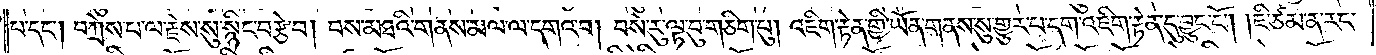པ་དང༌། བཀྲེས་པ་ལ་རྗེས་སུ་སྙིང་བརྩེ་བ། བས་མཐའི་གནས་མལ་ལ་དགའ་བ། བསེ་རུ་ལྟ་བུ་གཅིག་པུ། འཇིག་རྟེན་གྱི་ཡོན་གནས་སུ་གྱུར་པ་དག་འཇིག་རྟེན་དུ་བྱུང་ངོ༌། །ཇི་ཙམ་ན་རང་
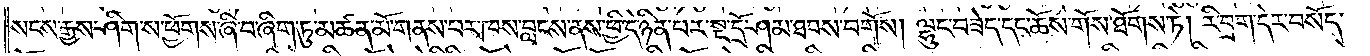སངས་རྒྱས་ཤིག་ས་ཕྱོགས་ཞི་བ་ཞིག་ཏུ་མཚན་མོ་གནས་པར་ཁས་བླངས་ནས་ཕྱི་དེ་ཉིན་པར་སྔ་དྲོ་ཤམ་ཐབས་བགོས། ལྷུང་བཟེད་དང་ཆོས་གོས་ཐོགས་ཏེ། རི་བྲག་དེར་བསོད་
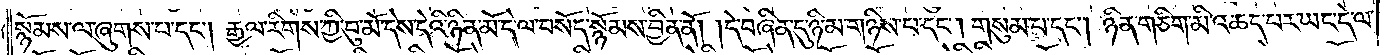སྙོམས་ལ་ཞུགས་པ་དང༌། རྒྱལ་རིགས་ཀྱི་བུ་མོ་དེས་དེའི་ཉིན་མོ་དེ་ལ་བསོད་སྙོམས་བྱིན་ནོ། །དེ་བཞིན་དུ་ཉི་མ་གཉིས་པ་དང༌། གསུམ་པ་དང༌། ཉིན་གཅིག་མི་འཆད་པར་ཡང་དེ་ལ་
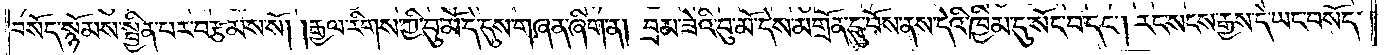བསོད་སྙོམས་སྦྱིན་པར་བརྩམས་སོ། །རྒྱལ་རིགས་ཀྱི་བུ་མོ་དེ་དུས་གཞན་ཞིག་ན། བྲམ་ཟེའི་བུ་མོ་དེས་མགྲོན་དུ་བོས་ནས་དེའི་ཁྱིམ་དུ་སོང་བ་དང༌། རང་སངས་རྒྱས་དེ་ཡང་བསོད་
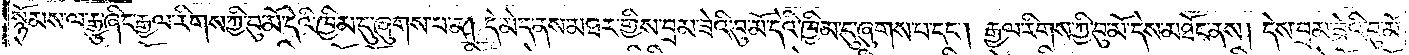སྙོམས་ལ་རྒྱུ་ཞིང་རྒྱལ་རིགས་ཀྱི་བུ་མོ་དེའི་ཁྱིམ་དུ་ཞུགས་པ་ན། དེ་མེད་ནས་མཐར་གྱིས་བྲམ་ཟེའི་བུ་མོ་དེའི་ཁྱིམ་དུ་ཞུགས་པ་དང༌། རྒྱལ་རིགས་ཀྱི་བུ་མོ་དེས་མཐོང་ནས། དེས་བྲམ་ཟེའི་བུ་མོ་
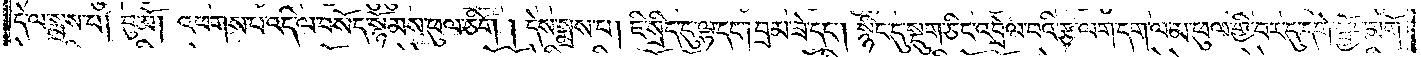དེ་ལ་སྨྲས་པ། བུ་མོ། འཕགས་པ་འདི་ལ་བསོད་སྙོམས་ཕུལ་ཅིག །དེས་སྨྲས་པ། ཇི་སྲིད་དུ་ལྷ་དང༌།བྲམ་ཟེ་དང༌། སྙིང་དུ་སྡུག་ཅིང་འབྲེལ་བའི་རྩ་ལག་དག་ལ་མ་ཕུལ་གྱི་བར་དུ་དགེ་སྦྱོང་མགོ་
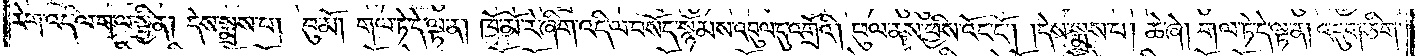རེག་འདི་ལ་ག་ལ་སྦྱིན། དེས་སྨྲས་པ། བུ་མོ། གལ་ཏེ་དེ་ལྟ་ན། ཁོ་མོ་རེ་ཞིག་འདི་ལ་བསོད་སྙོམས་འབུལ་དུ་འགྲོའི། །ཕུལ་ནས་ཕྱིས་འོང་ངོ༌། །དེས་སྨྲས་པ། ཆེ་ཞེ། གལ་ཏེ་དེ་ལྟ་ན། འདུག་ཅིག་
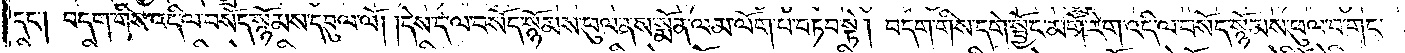དང༌། བདག་གིས་འདི་ལ་བསོད་སྙོམས་དབུལ་ལོ། །དེས་དེ་ལ་བསོད་སྙོམས་ཕུལ་ནས་སྨོན་ལམ་ལོག་པ་བཏབ་སྟེ། བདག་གིས་དགེ་སྦྱོང་མགོ་རེག་འདི་ལ་བསོད་སྙོམས་ཕུལ་བ་གང་
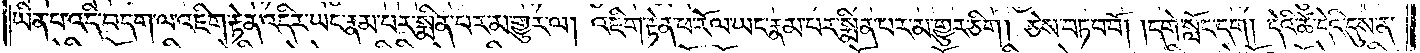ཡིན་པ་འདི་བདག་ལ་འཇིག་རྟེན་འདིར་ཡང་རྣམ་པར་སྨིན་པར་མ་གྱུར་ལ། འཇིག་རྟེན་ཕ་རོལ་ཡང་རྣམ་པར་སྨིན་པར་མ་གྱུར་ཅིག། ཅེས་བཏབ་བོ། །དགེ་སློང་དག། དེའི་ཚེ་དེའི་དུས་ན་
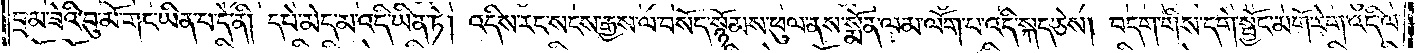བྲམ་ཟེའི་བུ་མོ་གང་ཡིན་པ་དེ་ནི། དཔེ་མེད་མ་འདི་ཡིན་ཏེ། འདིས་རང་སངས་རྒྱས་ལ་བསོད་སྙོམས་ཕུལ་ནས་སྨོན་ལམ་ལོག་པ་འདི་སྐད་ཅེས། བདག་གིས་དགེ་སྦྱོང་མགོ་རེག་འདི་ལ་
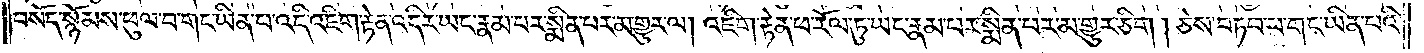བསོད་སྙོམས་ཕུལ་བ་གང་ཡིན་པ་འདི་འཇིག་རྟེན་འདིར་ཡང་རྣམ་པར་སྨིན་པར་མ་གྱུར་ལ། འཇིག་རྟེན་ཕ་རོལ་ཏུ་ཡང་རྣམ་པར་སྨིན་པར་མ་གྱུར་ཅིག །ཅེས་བཏབ་པ་གང་ཡིན་པའི་
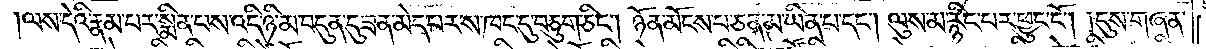ལས་དེའི་རྣམ་པར་སྨིན་པས་འདི་ཉི་མ་བདུན་དུ་ཟན་མེད་པར་ས་ཁང་དུ་བཅུག་ཅིང༌། ཉོན་མོངས་པ་ཅན་མ་ཡིན་པ་དང༌། ལུས་མ་རྙིང་པར་ཕྱུང་ངོ༌། །དུས་གཞན་
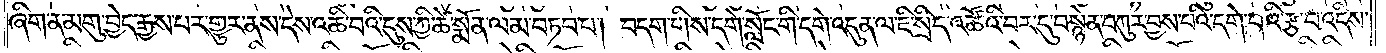ཞིག་ན་མགུ་བྱེད་རྒྱས་པར་གྱུར་ནས་དེས་འཆི་བའི་དུས་ཀྱི་ཚེ་སྨོན་ལམ་བཏབ་པ། བདག་གིས་དགེ་སློང་གི་དགེ་འདུན་ལ་ཇི་སྲིད་འཚོའི་བར་དུ་བསྙེན་བཀུར་བྱས་པའི་དགེ་བའི་རྩ་བ་འདིས་
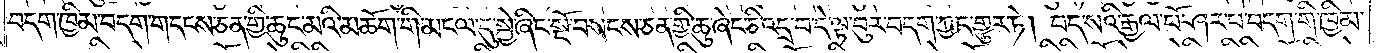བདག་ཁྱིམ་བདག་གདངས་ཅན་གྱི་ཆུང་མའི་མཆོག་གི་མངལ་དུ་སྐྱེ་ཞིང་སྔོ་བསངས་ཅན་གྱི་ཆུ་ཞེང་ཅི་འདྲ་བ་དེ་ལྟ་བུར་བདག་ཀྱང་གྱུར་ཏེ། བད་སའི་རྒྱལ་པོ་ཤར་པ་བདག་གི་ཁྱིམ་
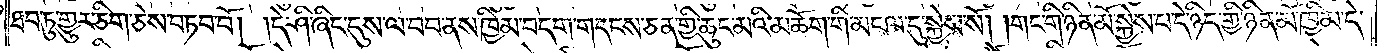ཐབ་ཏུ་གྱུར་ཅིག་ཅེས་བཏབ་བོ། །དེ་ཤི་ཞིང་དུས་ལ་བབ་ནས་ཁྱིམ་བདག་གདངས་ཅན་གྱི་ཆུང་མའི་མཆོག་གི་མངལ་དུ་སྐྱེས་སོ། །གང་གི་ཉིན་མོ་སྐྱེས་པ་དེ་ཉིད་ཀྱི་ཉིན་མོ་ཁྱིམ་དེ་
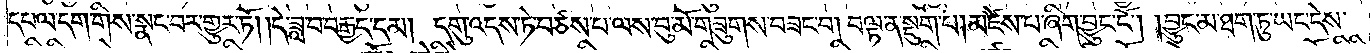དཔལ་དག་གིས་སྣང་བར་གྱུར་ཏོ། །དེ་ཟླ་བ་བརྒྱད་དམ། དགུ་འདས་ཏེ་བཙས་པ་ལས་བུ་མོ་གཟུགས་བཟང་བ། བལྟ་ན་སྡུག་པ། མཛེས་པ་ཞིག་བྱུང་ངོ༌། །བྱུང་མ་ཐག་ཏུ་ཡང་དེས་
